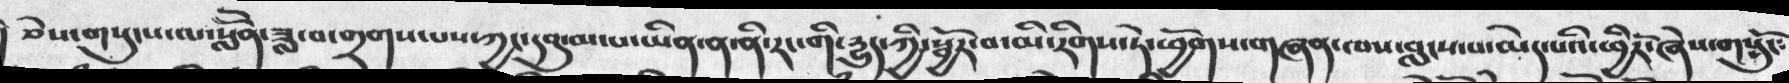ཅེས་གསུངས་ལ་སློོན་ཟླ་བ་གྲགས་པས་ཀྱང་དབུ་མ་པ་ཡིན་ན་ནི་རང་གི་དྱུད་ཀྱི་སྦྱོར་བ་མི་རིགས་ཏེ་ཕྱོགས་གཞན་ལས་བླངས་པ་མེད་པའི་ཕྱིརོ་ཞེས་གསུངོ༴
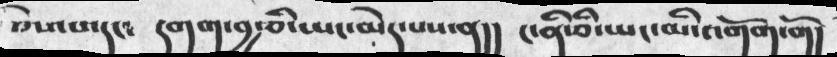ཅེས་པ་དང༴ དགག་བྱ་ཅི་ཡང་མེད་པས་ན།། ང་ནི་ཅི་ཡང་མི་འགོག་གོ།
